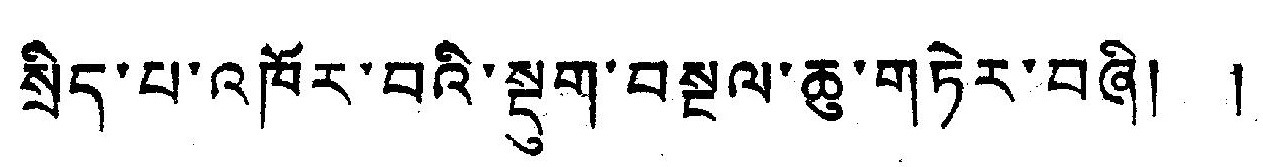སྲིད་པ་འཁོར་བའི་སྡུག་བསྔལ་ཆུ་གཏེར་བཞི། །
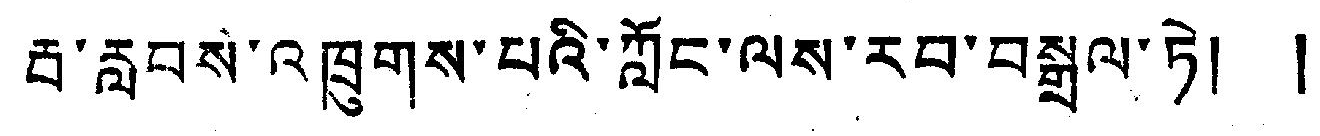བ་རླབས་འཁྲུགས་པའི་ཀློང་ལས་རབ་བསྒྲལ་ཏེ། །
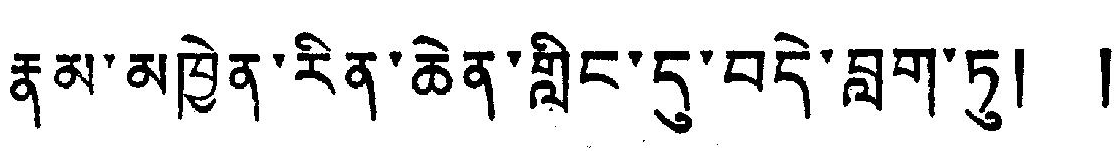རྣམ་མཁྱེན་རིན་ཆེན་གླིང་དུ་བདེ་བླག་ཏུ། །
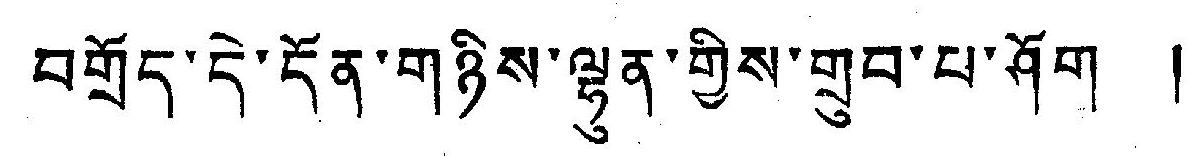བགྲོད་དེ་དོན་གཉིས་ལྷུན་གྱིས་གྲུབ་པ་ཤོག །
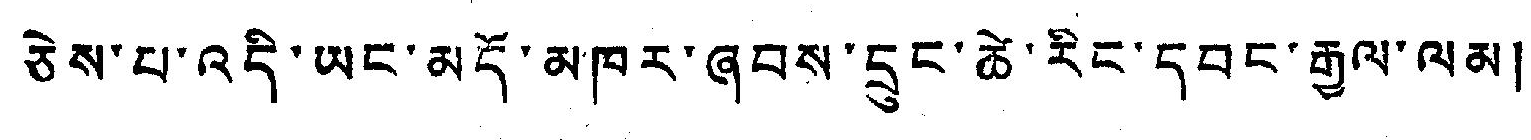ཅེས་པ་འདི་ཡང་མདོ་མཁར་ཞབས་དྲུང་ཚེ་རིང་དབང་རྒྱལ་ལམ།
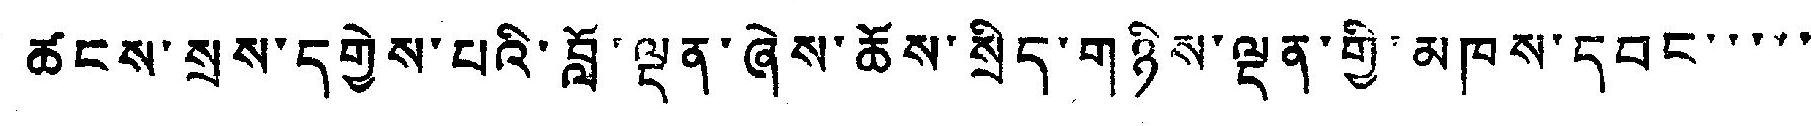ཚངས་སྲས་དགྱེས་པའི་བློ་ལྡན་ཞེས་ཆོས་སྲིད་གཉིས་ལྡན་གྱི་མཁས་དབང་་་་་
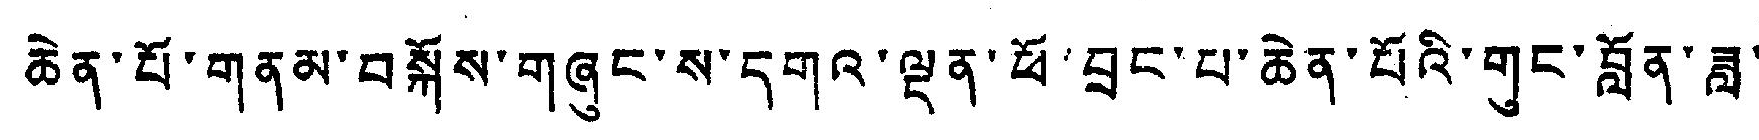ཆེན་པོ་གནམ་བསྐོས་གཞུང་ས་དགའ་ལྡན་ཕོ་བྲང་པ་ཆེན་པོའི་གུང་བློན་ཟླ་་
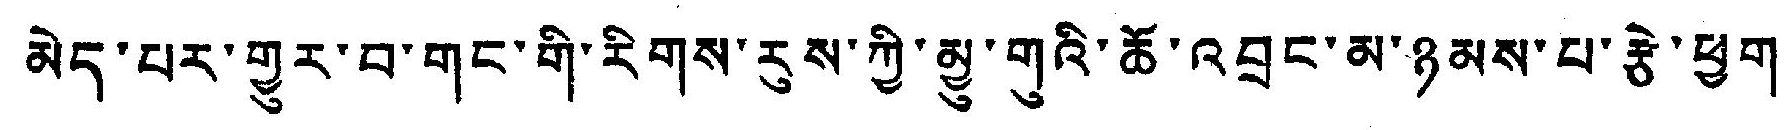མེད་པར་གྱུར་བ་གང་གི་རིགས་རུས་ཀྱི་མྱུ་གུའི་ཆོ་འབྲང་མ་ཉམས་པ་རྩེ་ཕྱག་
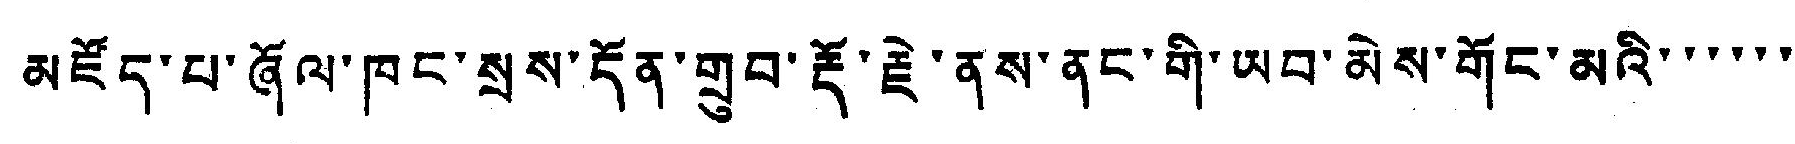མཛོད་པ་ཞོལ་ཁང་སྲས་དོན་གྲུབ་རྡོ་རྗེ་ནས་ནང་གི་ཡབ་མེས་གོང་མའི་་་་་་
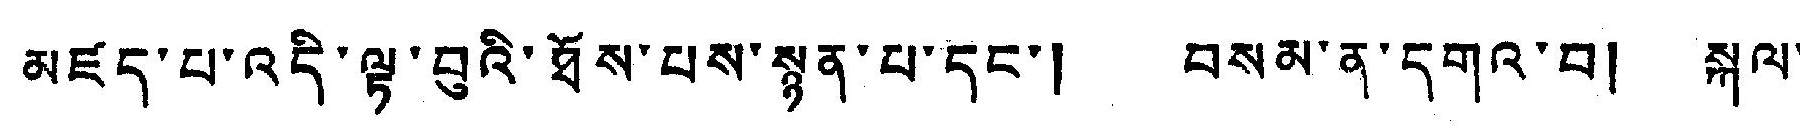མཛད་པ་འདི་ལྟ་བུའི་ཐོས་པས་སྙན་པ་དང་། བསམ་ན་དགའ་བ། སྐལ་
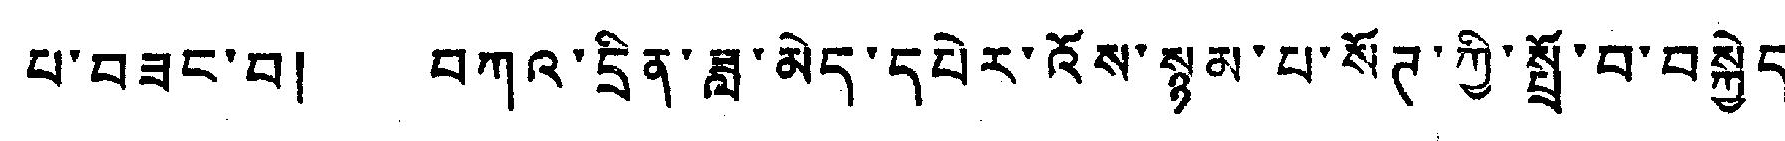པ་བཟང་བ། བཀའ་དྲིན་ཟླ་མེད་དཔེར་འོས་སྙམ་པ་སོཌ་ཀྱི་སྤྲོ་བ་བསྐྱེད་
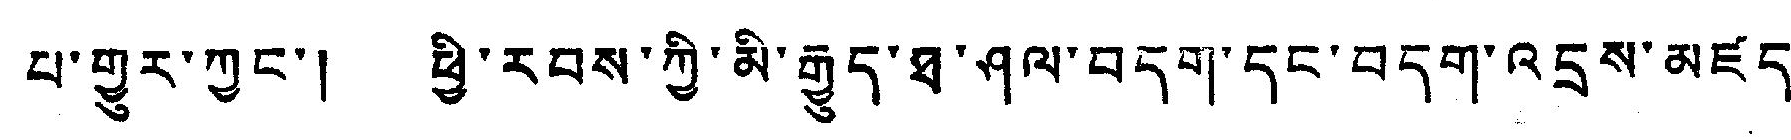པ་གྱུར་ཀྱང་། ཕྱི་རབས་ཀྱི་མི་རྒྱུད་ཐ་ཤལ་བདག་དང་བདག་འདྲས་མཛད་
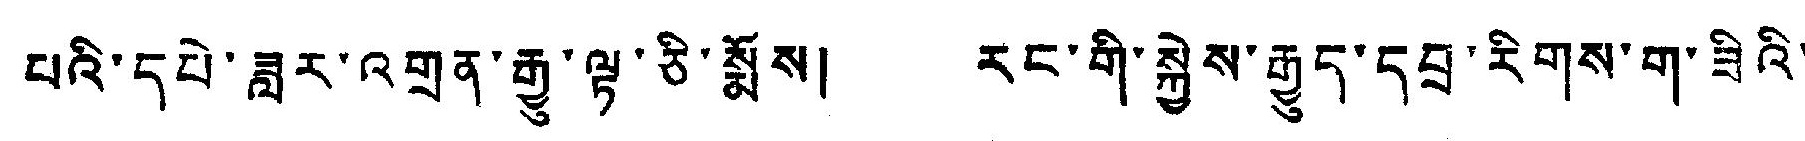པའི་དཔེ་ཟླར་འགྲན་རྒྱུ་ལྟ་ཅི་སྨོས། རང་གི་སྐྱེས་རྒྱུད་དབྲ་རིགས་ག་ཟིའི་
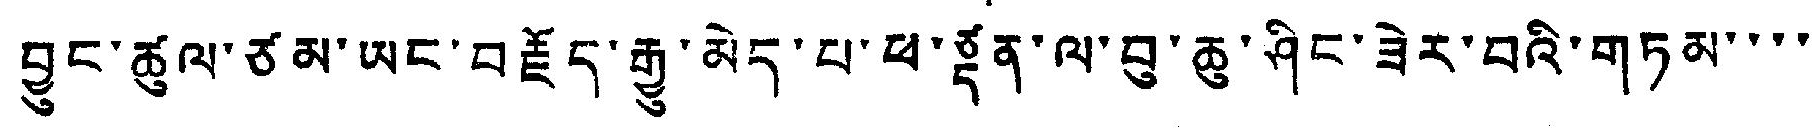བྱུང་ཚུལ་ཙམ་ཡང་བརྗོད་རྒྱུ་མེད་པ་ཕ་ཙྡན་ལ་བུ་ཆུ་ཤིང་ཟེར་བའི་གཏམ་་་་
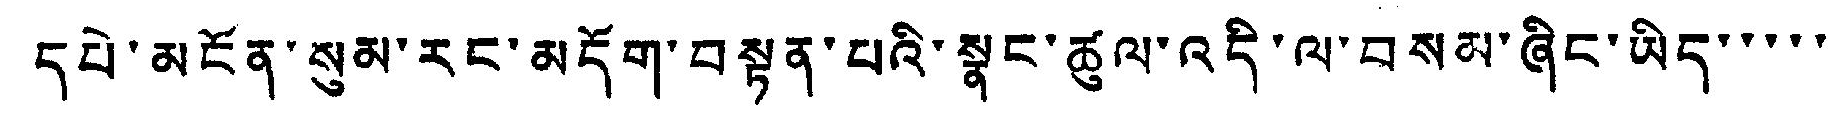དཔེ་མངོན་སུམ་རང་མདོག་བསྟན་པའི་སྣང་ཚུལ་འདི་ལ་བསམ་ཞིང་ཡིད་་་་་
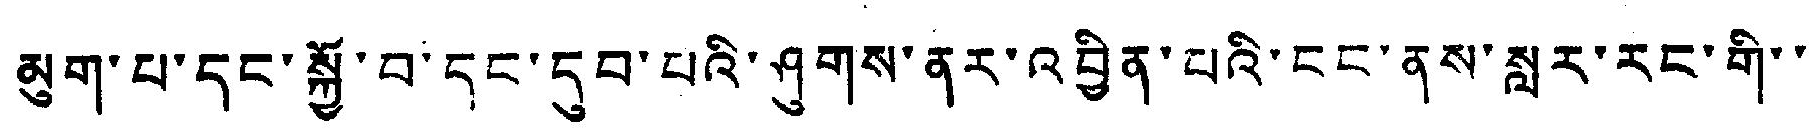མུག་པ་དང་སྐྱོ་བ་དང་དུབ་པའི་ཤུགས་ནར་འབྱིན་པའི་ངང་ནས་སླར་རང་གི་་
